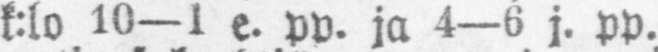k:lo 10—1 e. pp. ja 4—6 j. pp.
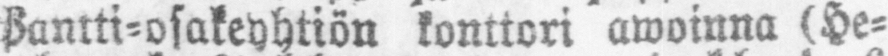Bantti-osakeyhtiön konttori awoinna (He-
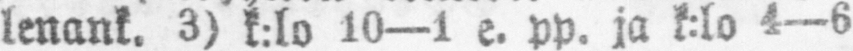lenank. 3) k:lo 10—1 e. pp. ja k:lo 4—6
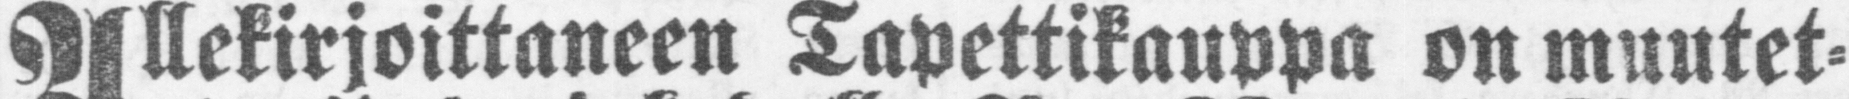Allekirjoittaneen Tapettikauppa on muutet-
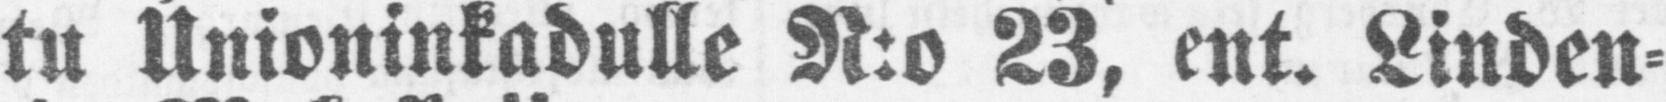tu Unioninkadulle N:o 23, ent. Linden-
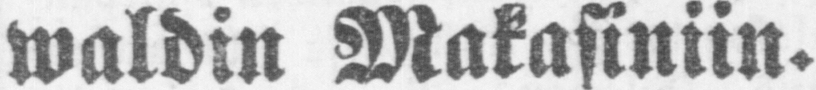waldin Makasiniin.
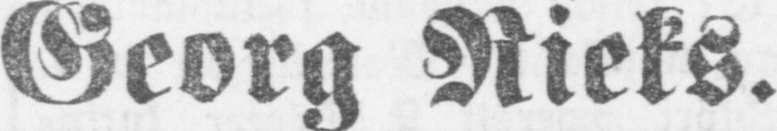Georg Rieks.
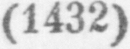(1432)
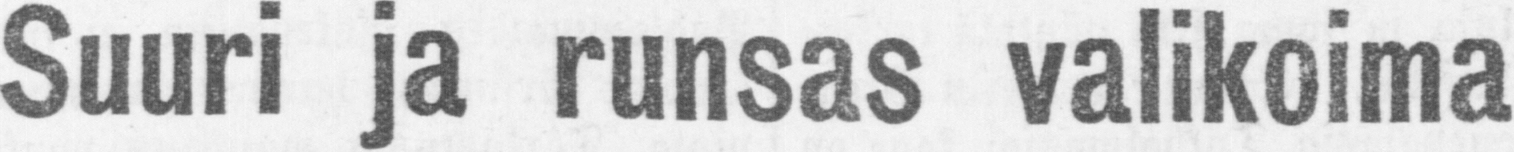Suuri ja runsas valikoima
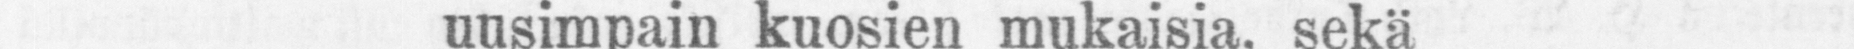TAPETTEJA ja REUNUKSIA,
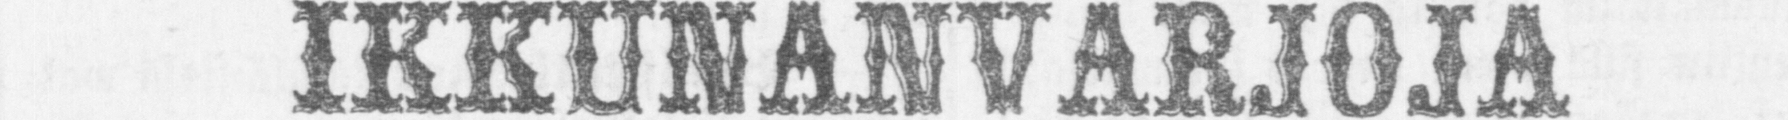KULTALISTOJA, PINKOPAPERIA,
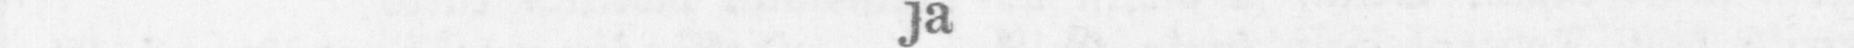IKKUNANVARJOJA
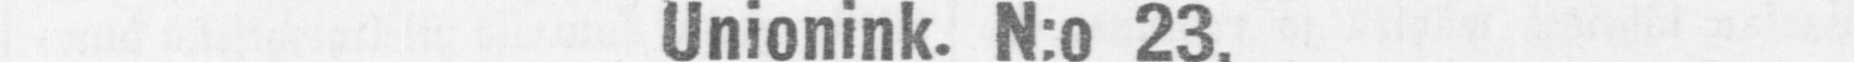Ikkunan-rullaverhoja,
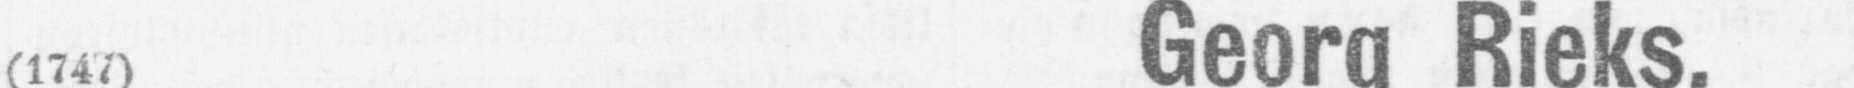TAPETTIKAUPASSA
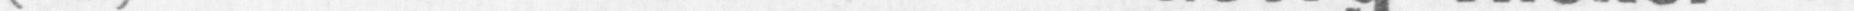Unionink. N:o 23,
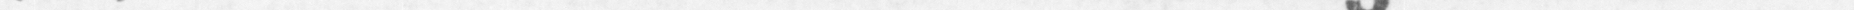ent. Lindenvald'in Makasiinissa.
